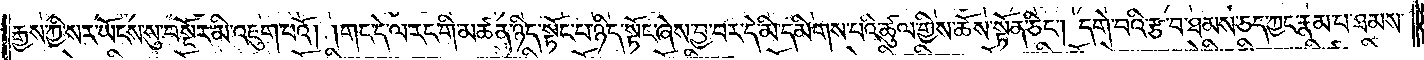རྒྱས་ཀྱི་སར་ཡོངས་སུ་བསྔོར་མི་འཇུག་པའོ། །གང་དེ་ལ་རང་གི་མཚན་ཉིད་སྟོང་པ་ཉིད་སྟོང་ཞེས་བྱ་བར་དེ་མི་དམིགས་པའི་ཚུལ་གྱིས་ཆོས་སྟོན་ཅིང༌། དགེ་བའི་རྩ་བ་ཐམས་ཅད་ཀྱང་རྣམ་པ་ཐམས་
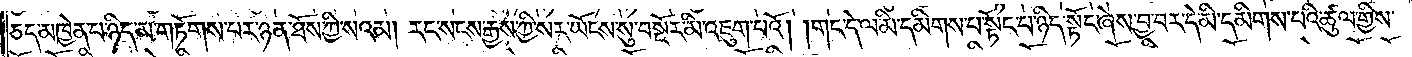ཅད་མཁྱེན་པ་ཉིད་མ་གཏོགས་པར་ཉན་ཐོས་ཀྱི་སའམ། རང་སངས་རྒྱས་ཀྱི་སར་ཡོངས་སུ་བསྔོར་མི་འཇུག་པའོ། །གང་དེ་ལ་མི་དམིགས་པ་སྟོང་པ་ཉིད་སྟོང་ཞེས་བྱ་བར་དེ་མི་དམིགས་པའི་ཚུལ་གྱིས་
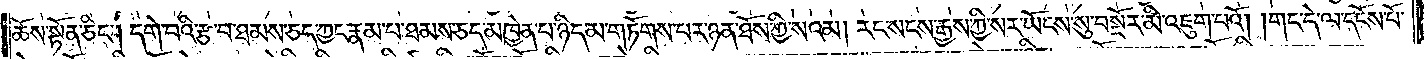ཆོས་སྟོན་ཅིང༌། དགེ་བའི་རྩ་བ་ཐམས་ཅད་ཀྱང་རྣམ་པ་ཐམས་ཅད་མཁྱེན་པ་ཉིད་མ་གཏོགས་པར་ཉན་ཐོས་ཀྱི་སའམ། རང་སངས་རྒྱས་ཀྱི་སར་ཡོངས་སུ་བསྔོར་མི་འཇུག་པའོ། །གང་དེ་ལ་དངོས་པོ་
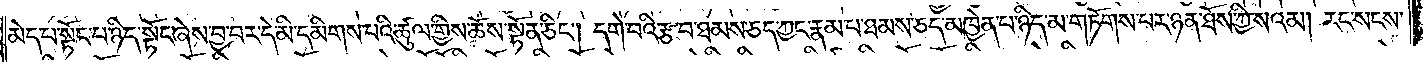མེད་པ་སྟོང་པ་ཉིད་སྟོང་ཞེས་བྱ་བར་དེ་མི་དམིགས་པའི་ཚུལ་གྱིས་ཆོས་སྟོན་ཅིང༌། དགེ་བའི་རྩ་བ་ཐམས་ཅད་ཀྱང་རྣམ་པ་ཐམས་ཅད་མཁྱེན་པ་ཉིད་མ་གཏོགས་པར་ཉན་ཐོས་ཀྱི་སའམ། རང་སངས་
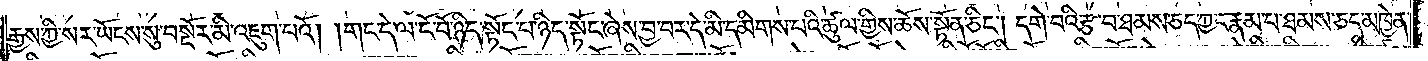རྒྱས་ཀྱི་སར་ཡོངས་སུ་བསྔོར་མི་འཇུག་པའོ། །གང་དེ་ལ་ངོ་བོ་ཉིད་སྟོང་པ་ཉིད་སྟོང་ཞེས་བྱ་བར་དེ་མི་དམིགས་པའི་ཚུལ་གྱིས་ཆོས་སྟོན་ཅིང༌། དགེ་བའི་རྩ་བ་ཐམས་ཅད་ཀྱང་རྣམ་པ་ཐམས་ཅད་མཁྱེན་
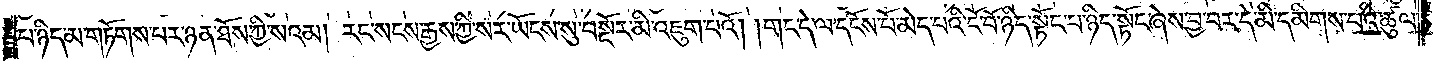པ་ཉིད་མ་གཏོགས་པར་ཉན་ཐོས་ཀྱི་སའམ། རང་སངས་རྒྱས་ཀྱི་སར་ཡོངས་སུ་བསྔོར་མི་འཇུག་པའོ། །གང་དེ་ལ་དངོས་པོ་མེད་པའི་ངོ་བོ་ཉིད་སྟོང་པ་ཉིད་སྟོང་ཞེས་བྱ་བར་དེ་མི་དམིགས་པའི་ཚུལ་
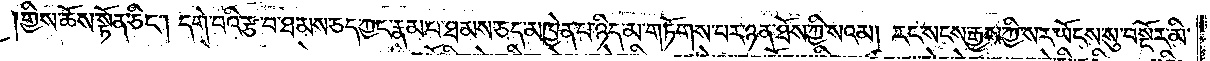གྱིས་ཆོས་སྟོན་ཅིང༌། དགེ་བའི་རྩ་བ་ཐམས་ཅད་ཀྱང་རྣམ་པ་ཐམས་ཅད་མཁྱེན་པ་ཉིད་མ་གཏོགས་པར་ཉན་ཐོས་ཀྱི་སའམ། རང་སངས་རྒྱས་ཀྱི་སར་ཡོངས་སུ་བསྔོར་མི་
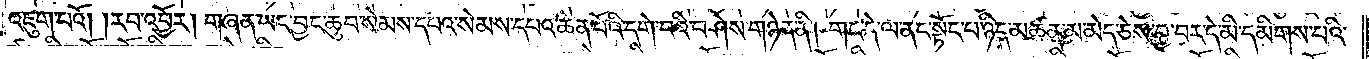འཇུག་པའོ། །རབ་འབྱོར། གཞན་ཡང་བྱང་ཆུབ་སེམས་དཔའ་སེམས་དཔའ་ཆེན་པོའི་དགེ་བའི་བཤེས་གཉེན་ནི། གང་དེ་ལ་ནང་སྟོང་པ་ཉིད་མཚན་མ་མེད་ཅེས་བྱ་བར་དེ་མི་དམིགས་པའི་
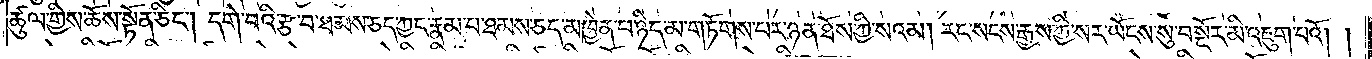ཚུལ་གྱིས་ཆོས་སྟོན་ཅིང༌། དགེ་བའི་རྩ་བ་ཐམས་ཅད་ཀྱང་རྣམ་པ་ཐམས་ཅད་མཁྱེན་པ་ཉིད་མ་གཏོགས་པར་ཉན་ཐོས་ཀྱི་སའམ། རང་སངས་རྒྱས་ཀྱི་སར་ཡོངས་སུ་བསྔོར་མི་འཇུག་པའོ། །
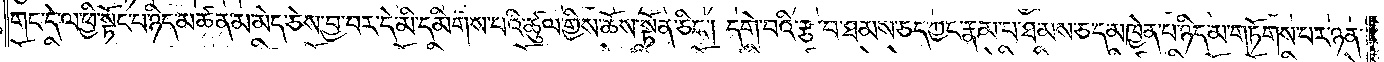གང་དེ་ལ་ཕྱི་སྟོང་པ་ཉིད་མཚན་མ་མེད་ཅེས་བྱ་བར་དེ་མི་དམིགས་པའི་ཚུལ་གྱིས་ཆོས་སྟོན་ཅིང༌། དགེ་བའི་རྩ་བ་ཐམས་ཅད་ཀྱང་རྣམ་པ་ཐམས་ཅད་མཁྱེན་པ་ཉིད་མ་གཏོགས་པར་ཉན་
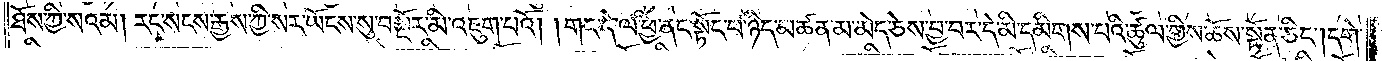ཐོས་ཀྱི་སའམ། རང་སངས་རྒྱས་ཀྱི་སར་ཡོངས་སུ་བསྔོར་མི་འཇུག་པའོ། །གང་དེ་ལ་ཕྱི་ནང་སྟོང་པ་ཉིད་མཚན་མ་མེད་ཅེས་བྱ་བར་དེ་མི་དམིགས་པའི་ཚུལ་གྱིས་ཆོས་སྟོན་ཅིང༌། དགེ་
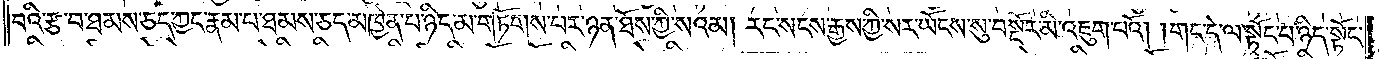བའི་རྩ་བ་ཐམས་ཅད་ཀྱང་རྣམ་པ་ཐམས་ཅད་མཁྱེན་པ་ཉིད་མ་གཏོགས་པར་ཉན་ཐོས་ཀྱི་སའམ། རང་སངས་རྒྱས་ཀྱི་སར་ཡོངས་སུ་བསྔོར་མི་འཇུག་པའོ། །གང་དེ་ལ་སྟོང་པ་ཉིད་སྟོང་
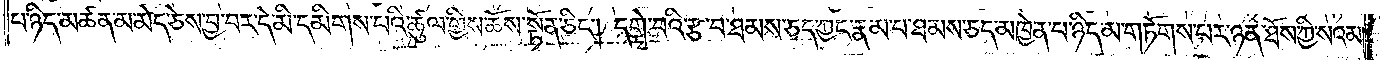པ་ཉིད་མཚན་མ་མེད་ཅེས་བྱ་བར་དེ་མི་དམིགས་པའི་ཚུལ་གྱིས་ཆོས་སྟོན་ཅིང༌། དགེ་བའི་རྩ་བ་ཐམས་ཅད་ཀྱང་རྣམ་པ་ཐམས་ཅད་མཁྱེན་པ་ཉིད་མ་གཏོགས་པར་ཉན་ཐོས་ཀྱི་སའམ་
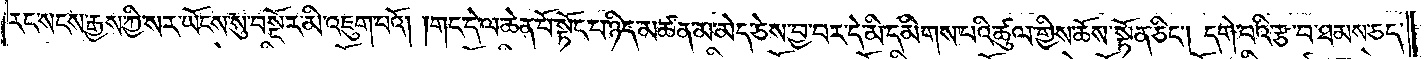རང་སངས་རྒྱས་ཀྱི་སར་ཡོངས་སུ་བསྔོར་མི་འཇུག་པའོ། །གང་དེ་ལ་ཆེན་པོ་སྟོང་པ་ཉིད་མཚན་མ་མེད་ཅེས་བྱ་བར་དེ་མི་དམིགས་པའི་ཚུལ་གྱིས་ཆོས་སྟོན་ཅིང༌། དགེ་བའི་རྩ་བ་ཐམས་ཅད་
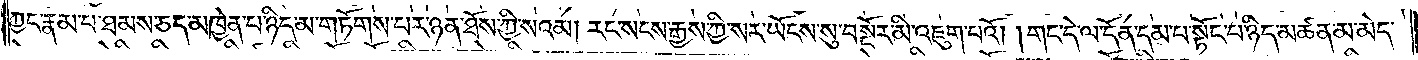ཀྱང་རྣམ་པ་ཐམས་ཅད་མཁྱེན་པ་ཉིད་མ་གཏོགས་པར་ཉན་ཐོས་ཀྱི་སའམ། རང་སངས་རྒྱས་ཀྱི་སར་ཡོངས་སུ་བསྔོར་མི་འཇུག་པའོ། །གང་དེ་ལ་དོན་དམ་པ་སྟོང་པ་ཉིད་མཚན་མ་མེད་
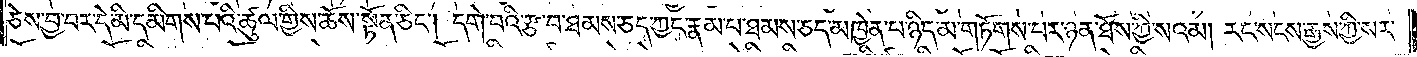ཅེས་བྱ་བར་དེ་མི་དམིགས་པའི་ཚུལ་གྱིས་ཆོས་སྟོན་ཅིང༌། དགེ་བའི་རྩ་བ་ཐམས་ཅད་ཀྱང་རྣམ་པ་ཐམས་ཅད་མཁྱེན་པ་ཉིད་མ་གཏོགས་པར་ཉན་ཐོས་ཀྱི་སའམ། རང་སངས་རྒྱས་ཀྱི་སར་
